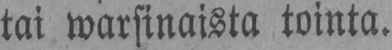tai warsinaista tointa.
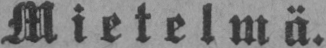Mietelmä.
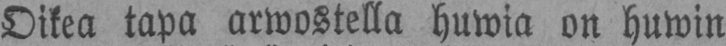Oikea tapa arwostella huwia on huwin
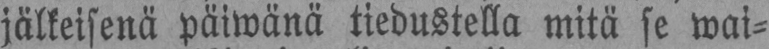jälkeisenä päiwänä tiedustella mitä se wai-
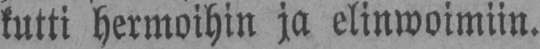kutti hermoihin ja elinwoimiin.
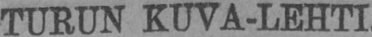TURUN KUVA-LEHTI.
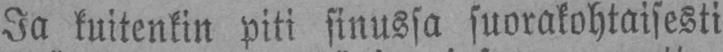Ja kuitenkin piti sinussa suorakohtaisesti
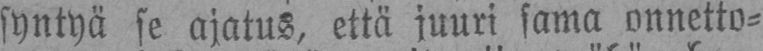syntyä se ajatus, että juuri sama onnetto-
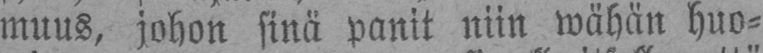muus, johon sinä panit niin wähän huo-
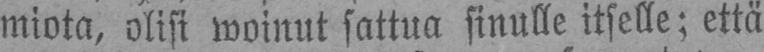miota, olisi woinut sattua sinulle itselle; että
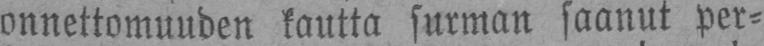onnettomuuden kautta surman saanut per-
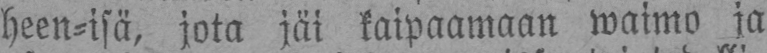heen-isä, jota jäi kaipaamaan waimo ja
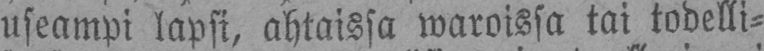useampi lapsi, ahtaissa waroissa tai todelli-
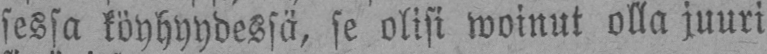sessa köyhyydessä, se olisi woinut olla juuri
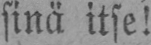sinä itse!
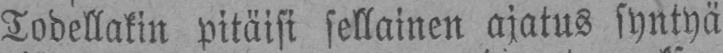Todellakin pitäisi sellainen ajatus syntyä
